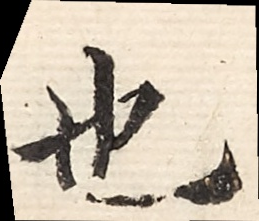也
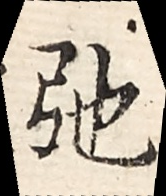弛
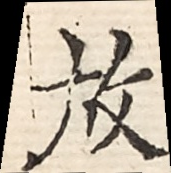放
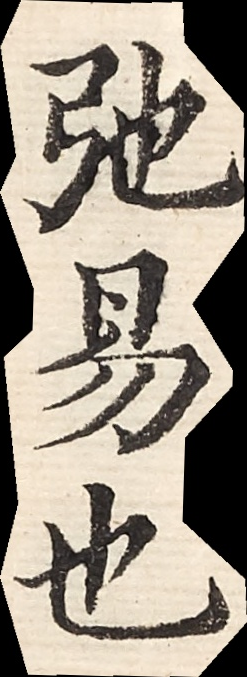弛易也
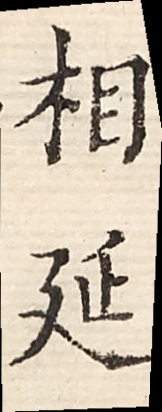相延
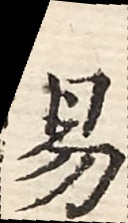易
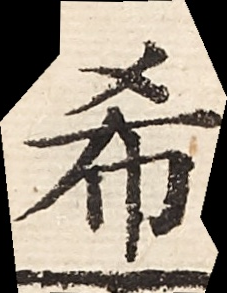希
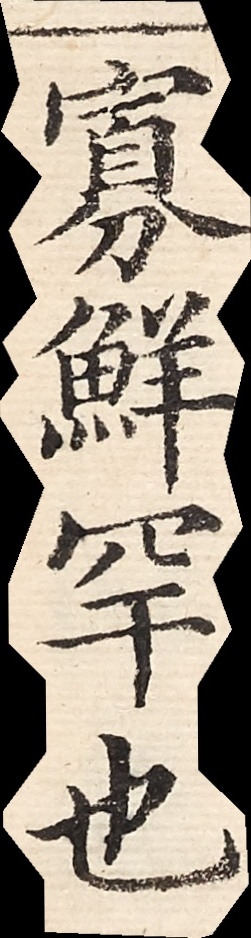寡鮮罕也
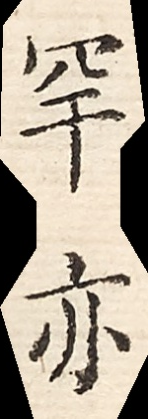罕亦
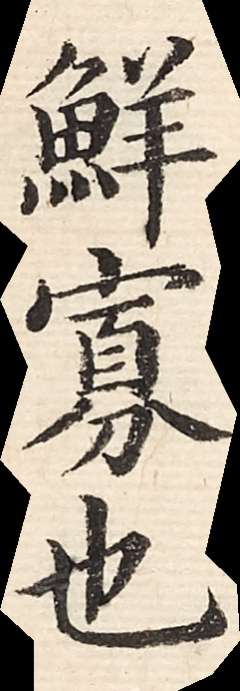鮮寡也
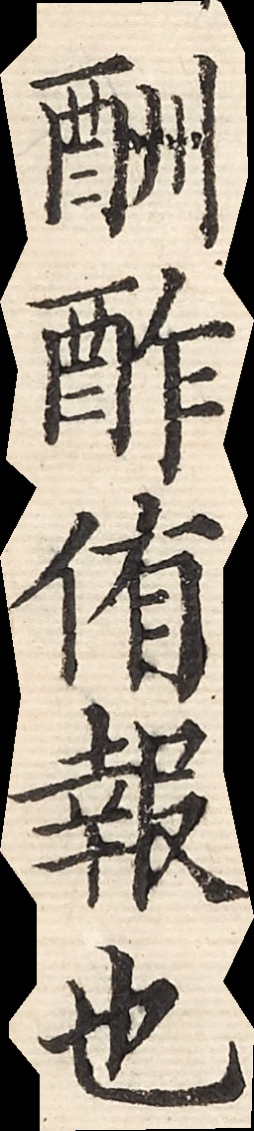酬酢侑報也
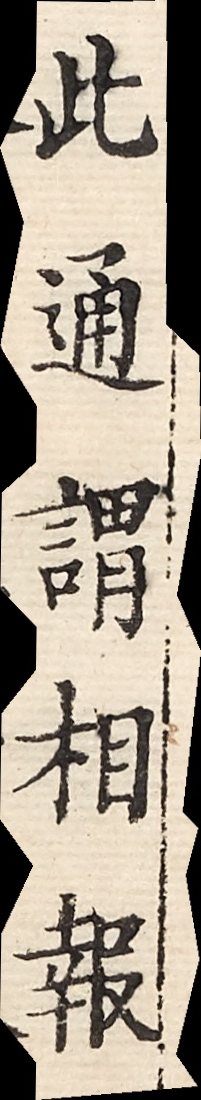此通謂相報
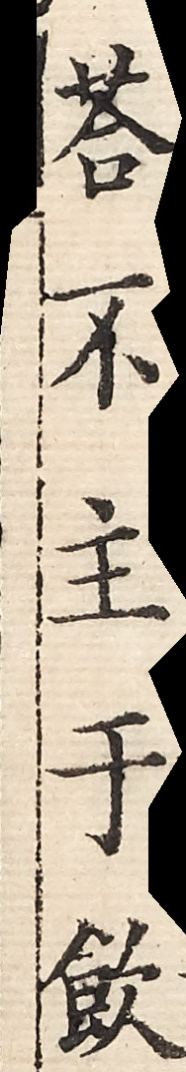荅不主于飲
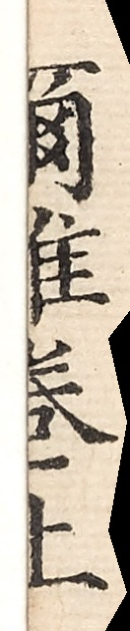爾雅卷上
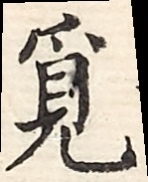覓
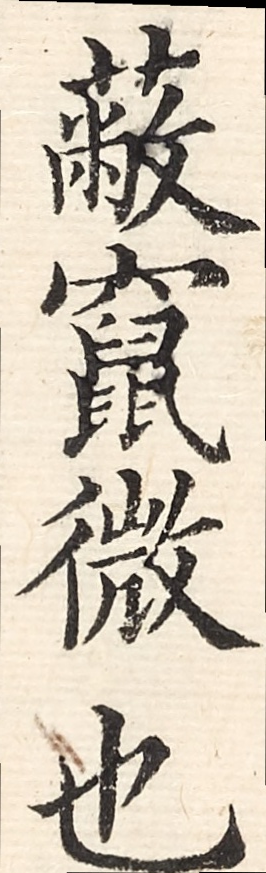蔽竄微也
